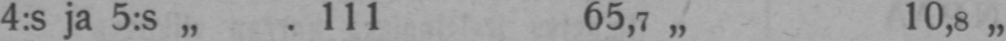4:s ja 5:s „ . 111 65,7„ 10,8„
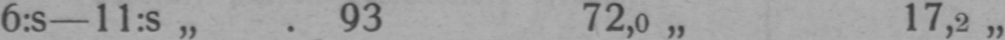6:s—11:s „ . 93 72,0„ 17,2„
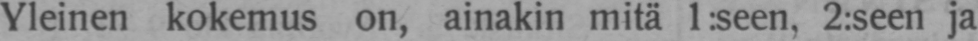Yleinen kokemus on, ainakin mitä 1:seen, 2:seen ja
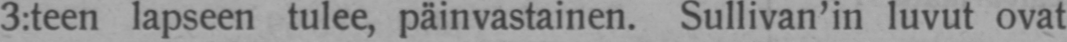3:teen lapseen tulee, päinvastainen. Sullivan'in luvut ovat
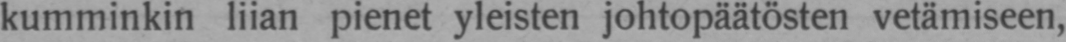kumminkin liian pienet yleisten johtopäätösten vetämiseen,
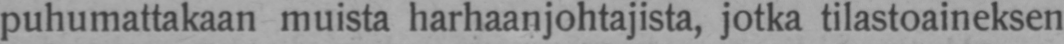puhumattakaan muista harhaanjohtajista, jotka tilastoaineksen
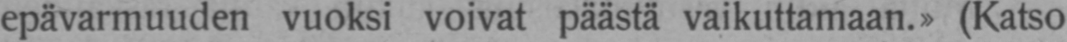epävarmuuden vuoksi voivat päästä vaikuttamaan.» (Katso
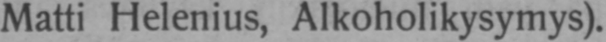Matti Helenius, Alkoholikysymys).
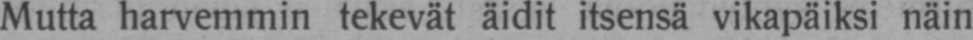Mutta harvemmin tekevät äidit itsensä vikapäiksi näin
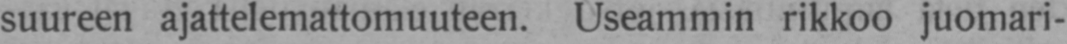suureen ajattelemattomuuteen. Useammin rikkoo juomari-
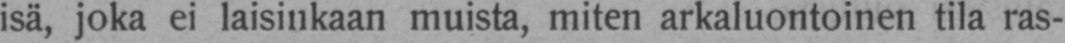isä, joka ei laisinkaan muista, miten arkaluontoinen tila ras-
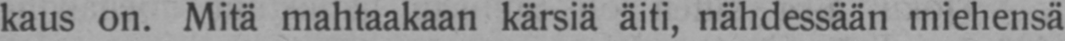kaus on. Mitä mahtaakaan kärsiä äiti, nähdessään miehensä
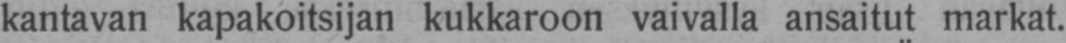kantavan kapakoitsijan kukkaroon vaivalla ansaitut markat.
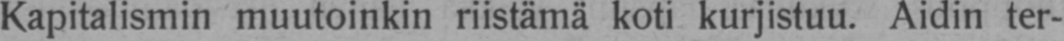Kapitalismin muutoinkin riistämä koti kurjistuu. Äidin ter-
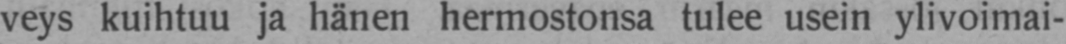veys kuihtuu ja hänen hermostonsa tulee usein ylivoimai-
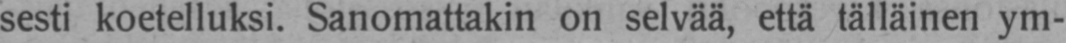sesti koetelluksi. Sanomattakin on selvää, että tälläinen ym-
